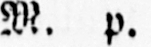M. p.
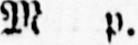M p.
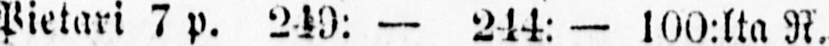Pietari 7 p. — L14: — lOO:lt.i N.
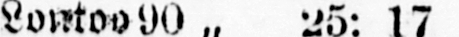Lontoo 90 „ 25: 17
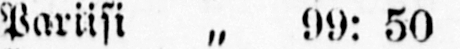Pariisi „ 99: 50
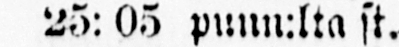25:05 punn:lta st.
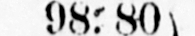98:80
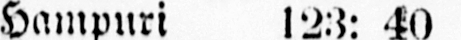Hampuri 123: 40
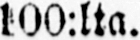100:lta.
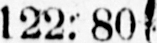122:80
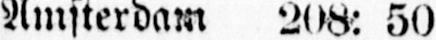Amsterdam 208: 50
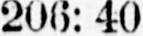206: 40
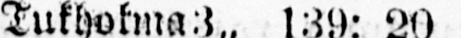Tukhokma3„ 139: 20
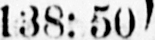138:50
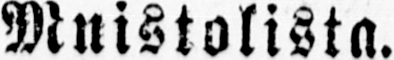Mnistolista.
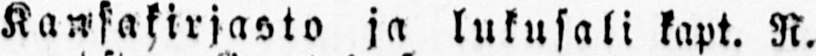Kansakirjasto ja lukusali kapt. N.
